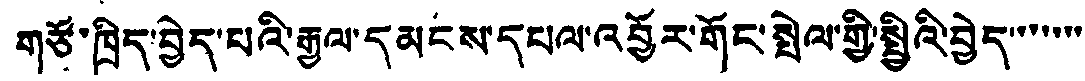གཙོ་ཁྲིད་བྱེད་པའི་རྒྱལ་དམངས་དཔལ་འབྱོར་གོང་སྤེལ་གྱི་སྤྱིའི་བྱེད་་་་་་་
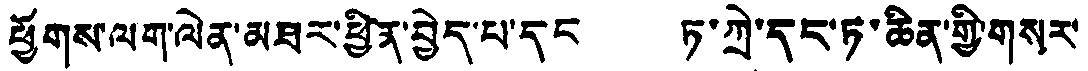ཕྱོགས་ལག་ལེན་མཐར་ཕྱིན་བྱེད་པ་དང ཏ་ཀྲེ་དང་ཏ་ཆིན་གྱི་གསར་
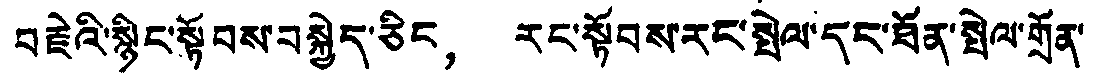བརྗེའི་སྙིང་སྟོབས་བསྐྱེད་ཅིང， རང་སྟོབས་རང་སྤེལ་དང་ཐོན་སྤེལ་གྲོན་
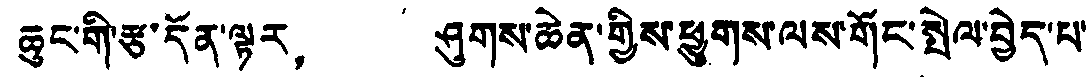ཆུང་གི་རྩ་དོན་ལྟར， ཤུགས་ཆེན་གྱིས་ཕྱུགས་ལས་གོང་སྤེལ་བྱེད་པ་
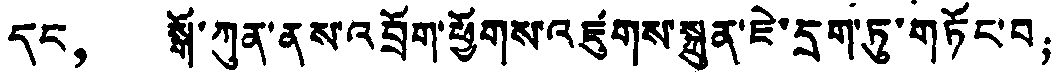དང， སྒོ་ཀུན་ནས་འབྲོག་ཕྱོགས་འཛུགས་སྐྲུན་ཇེ་དྲག་ཏུ་གཏོང་བ；
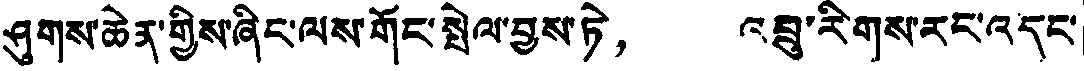ཤུགས་ཆེན་གྱིས་ཞིང་ལས་གོང་སྤེལ་བྱས་ཏེ， འབྲུ་རིགས་རང་འདང་
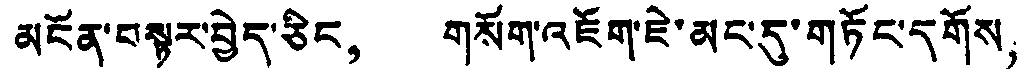མངོན་བསྟར་བྱེད་ཅིང， གསོག་འཇོག་ཇེ་མང་དུ་གཏོང་དགོས，
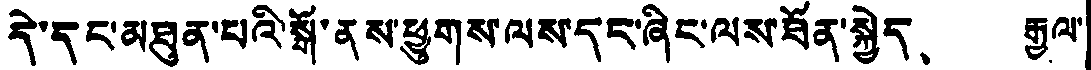དེ་དང་མཐུན་པའི་སྒོ་ནས་ཕྱུགས་ལས་དད་ཞིང་ལས་ཐོན་སྐྱེད、 རྒྱལ་
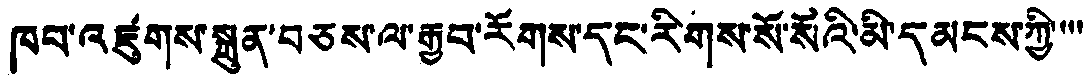ཁབ་འཛུགས་སྐྲུན་བཅས་ལ་གྲབ་རོགས་དང་རིགས་སོ་སོའི་མི་དམངས་ཀྱི་་་་
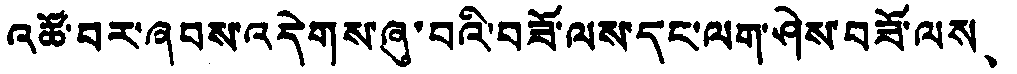འཚོ་བར་ཞབས་འདེགས་ཞུ་བའི་བཟོ་ལས་དང་ལག་ཤེས་བཟོ་ལས、
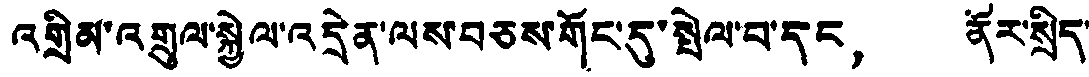འགྲིམ་འགྲུལ་སྐྱེལ་འདྲེན་ལས་བཅས་གོང་དུ་སྤེལ་བ་དང， ནོར་སྲིད་
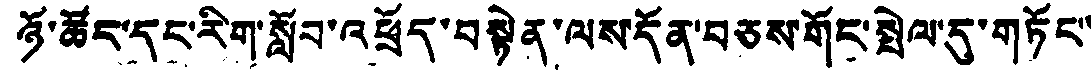ཉོ་ཚོང་དང་རིག་སློབ་འཕྲོད་བསྟེན་ལས་དོན་བཅས་གོང་སྤེལ་དུ་གཏོང་
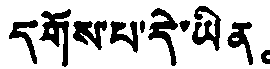དགོས་པ་དེ་ཡིན。
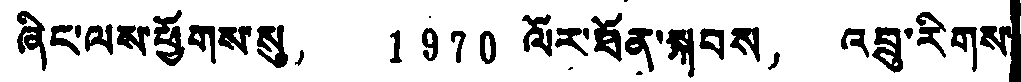ཞིང་ལས་ཕྱོགས་སུ， 1970 ལོར་ཐོན་སྐབས， འབྲུ་རིགས་
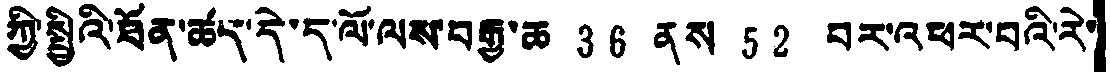ཀྱི་སྤྱིའི་ཐོན་ཚད་དེ་ད་ལོ་ལས་བརྒྱ་ཆ 36 ནས 52 བར་འཕར་བའི་རེ་
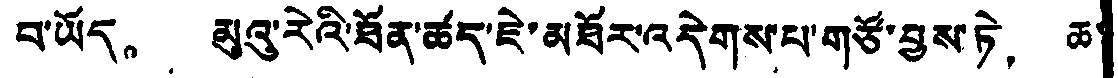བ་ཡོད。 མུའུ་རེའི་ཐོན་ཚད་ཇེ་མཐོར་འདེགས་པ་གཙོ་བྱས་ཏེ， ཆ
